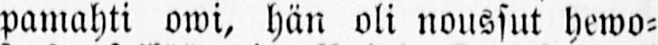pamahti owi, hän oli nonssut hewo-
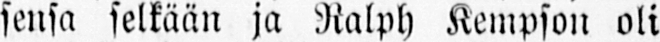sensa selkään ja Ralph Kempson oli
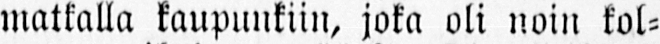matkalla kaupunkiin, joka oli noin kol-
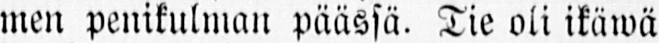men penikulman päässä. Tie oli ikäwä
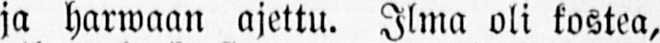ja harwaan ajettu. Ilma oli kostea,
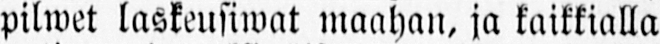pilwet laskeusiwat maahan, ja kaikkialla
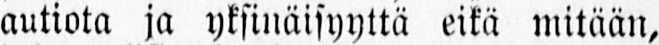autiota ja yksinäisyyttä eikä mitään,
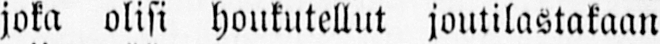joka olisi houkutellut joutilastakaan
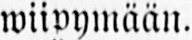wiipymään.
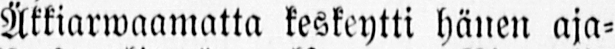Äkkiarwaamatta keskeytti hänen aja-
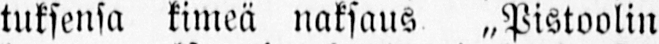tuksensa kimeä naksaus „Pistoolin
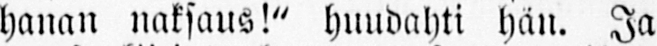hanan naksaus!" huudahti hän. Ja
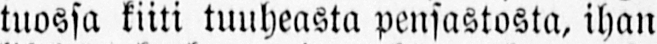tuossa kiiti tuuheasta pensastosta, ihan
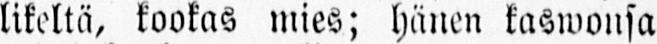likeltä, kookas mies; hänen kaswonsa
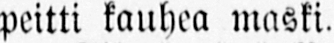peitti kauhea maski.
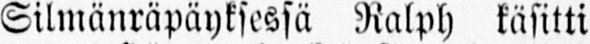Silmänräpäyksessä Ralph käsitti
